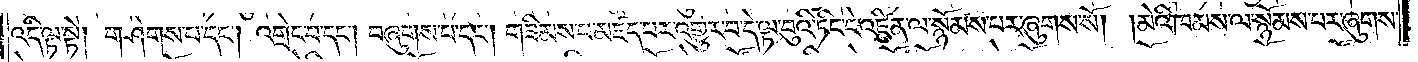འདི་ལྟ་སྟེ། གཤེགས་པ་དང༌། འགྲེང་བ་དང༌། བཞུགས་པ་དང༌། གཟིམས་པ་མཛད་པར་འགྱུར་བ་དེ་ལྟ་བུའི་ཏིང་ངེ་འཛིན་ལ་སྙོམས་པར་ཞུགས་སོ། །མེའི་ཁམས་ལ་སྙོམས་པར་ཞུགས་
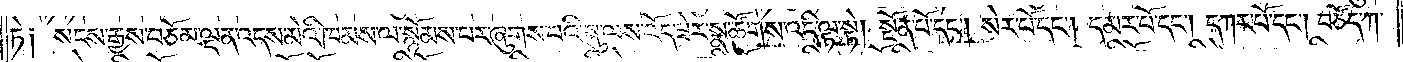ཏེ༑ སངས་རྒྱས་བཅོམ་ལྡན་འདས་མེའི་ཁམས་ལ་སྙོམས་པར་ཞུགས་པའི་སྐུ་ལས་འོད་ཟེར་སྣ་ཚོགས་འདི་ལྟ་སྟེ། སྔོན་པོ་དང༌། སེར་པོ་དང༌། དམར་པོ་དང༌། དཀར་པོ་དང༌། བཙོད་ཀ་
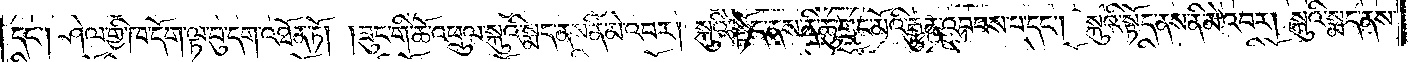དང༌། ཤེལ་གྱི་ཁ་དོག་ལྟ་བུ་དག་འཐོན་ཏོ། །ཟུང་གི་ཆོ་འཕྲུལ་སྐུའི་སྨད་ནས་ནི་མེ་འབར། སྐུའི་སྟོད་ནས་ནི་ཆུ་གྲང་མོའི་རྒྱུན་འབབས་པ་དང༌། སྐུའི་སྟོད་ནས་ནི་མེ་འབར། སྐུའི་སྨད་ནས་
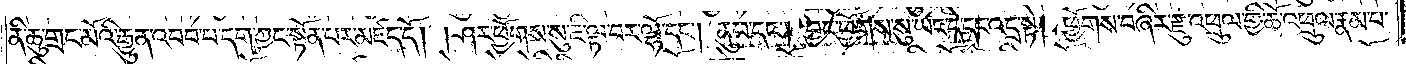ནི་ཆུ་གྲང་མོའི་རྒྱུན་འབབ་པ་དག་ཀྱང་སྟོན་པར་མཛད་དོ། །ཤར་ཕྱོགས་སུ་ཇི་ལྟ་བར་ལྷོ་དང༌། ནུབ་དང༌། བྱང་ཕྱོགས་སུ་ཡང་དེ་དང་འདྲ་སྟེ། ཕྱོགས་བཞིར་རྫུ་འཕྲུལ་གྱི་ཆོ་འཕྲུལ་རྣམ་པ་
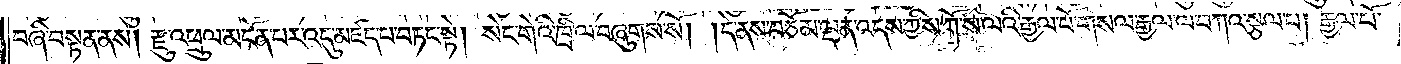བཞི་བསྟན་ནས། རྫུ་འཕྲུལ་མངོན་པར་འདུ་མཛད་པ་བཏང་སྟེ། སེང་གེའི་ཁྲི་ལ་བཞུགས་སོ། །དེ་ནས་བཅོམ་ལྡན་འདས་ཀྱིས་ཀོ་ས་ལའི་རྒྱལ་པོ་གསལ་རྒྱལ་ལ་བཀའ་སྩལ་པ། རྒྱལ་པོ་
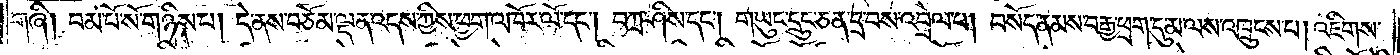གཞི། བམ་པོ་སོ་གཉིས་པ། དེ་ནས་བཅོམ་ལྡན་འདས་ཀྱིས་ཕྱག་འཁོར་ལོ་དང༌། བཀྲ་ཤིས་དང༌། གཡུང་དྲུང་ཅན་དྲ་བས་འབྲེལ་པ། བསོད་ནམས་བརྒྱ་ཕྲག་དུ་མ་ལས་འཁྲུངས་པ། འཇིགས་
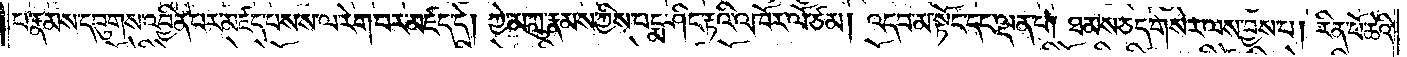པ་རྣམས་དབུགས་འབྱིན་པར་མཛད་པས་ས་ལ་རེག་པར་མཛད་དེ། ཀྱེ་མ་ཀླུ་རྣམས་ཀྱིས་པདྨ་ཤིང་རྟའི་འཁོར་ལོ་ཙམ། འདབ་མ་སྟོང་དང་ལྡན་པ། ཐམས་ཅད་གསེར་ལས་བྱས་པ། རིན་པོ་ཆེའི་
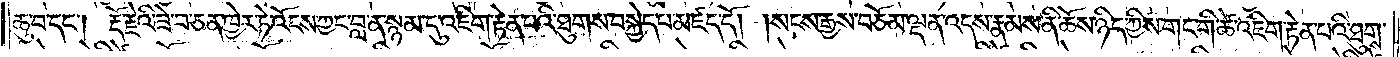ཆུ་བ་དང༌། རྡོ་རྗེའི་ཟེ་བ་ཅན་ཁྱེར་ཏེ་འོངས་ཀྱང་བླ་ན་སྙམ་དུ་འཇིག་རྟེན་པའི་ཐུགས་བསྐྱེད་པ་མཛད་དོ། །སངས་རྒྱས་བཅོམ་ལྡན་འདས་རྣམས་ནི་ཆོས་ཉིད་ཀྱིས་གང་གི་ཚེ་འཇིག་རྟེན་པའི་ཐུགས་
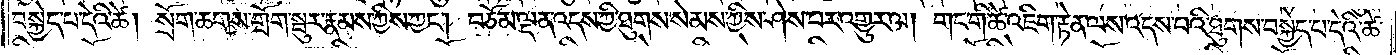བསྐྱེད་པ་དེའི་ཚེ། སྲོག་ཆགས་གྲོག་སྦུར་རྣམས་ཀྱིས་ཀྱང༌། བཅོམ་ལྡན་འདས་ཀྱིས་ཐུགས་སེམས་ཀྱིས་ཤེས་པར་འགྱུར་ལ། གང་གི་ཚེ་འཇིག་རྟེན་ལས་འདས་པའི་ཐུགས་བསྐྱེད་པ་དེའི་ཚེ་
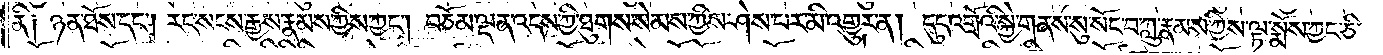ནི༑ ཉན་ཐོས་དང༌། རང་སངས་རྒྱས་རྣམས་ཀྱིས་ཀྱང༌། བཅོམ་ལྡན་འདས་ཀྱི་ཐུགས་སེམས་ཀྱིས་ཤེས་པར་མི་འགྱུར་ན། དུད་འགྲོའི་སྐྱེ་གནས་སུ་སོང་བ་ཀླུ་རྣམས་ཀྱིས་ལྟ་སྨོས་ཀྱང་ཅི་
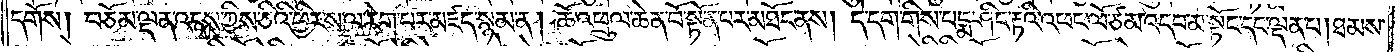དགོས། བཅོམ་ལྡན་འདས་ཀྱིས་ཅིའི་ཕྱིར་ས་ལ་རེག་པར་མཛད་སྙམ་ན། ཆོ་འཕྲུལ་ཆེན་པོ་སྟོན་པར་མཐོང་ནས། དེ་དག་གིས་པདྨ་ཤིང་རྟའི་འཕང་ལོ་ཙམ་འདབ་མ་སྟོང་དང་ལྡན་པ། ཐམས་
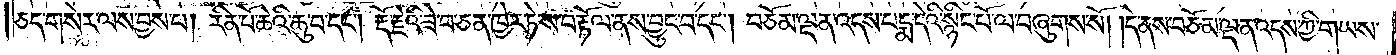ཅད་གསེར་ལས་བྱས་པ། རིན་པོ་ཆེའི་ཆུ་བ་དང༌། རྡོ་རྗེའི་ཟེ་བ་ཅན་ཁྱེར་ཏེ་ས་བརྟོལ་ནས་བྱུང་བ་དང༌། བཅོམ་ལྡན་འདས་པདྨ་དེའི་སྙིང་པོ་ལ་བཞུགས་སོ། །དེ་ནས་བཅོམ་ལྡན་འདས་ཀྱི་གཡས་
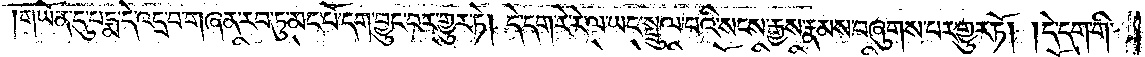གཡོན་དུ་པདྨ་དེ་འདྲ་བ་གཞན་རབ་ཏུ་མང་པོ་དག་བྱུང་བར་གྱུར་ཏེ། དེ་དག་རེ་རེ་ལ་ཡང་སྤྲུལ་པའི་སངས་རྒྱས་རྣམས་བཞུགས་པར་གྱུར་ཏོ། །དེ་དག་གི་
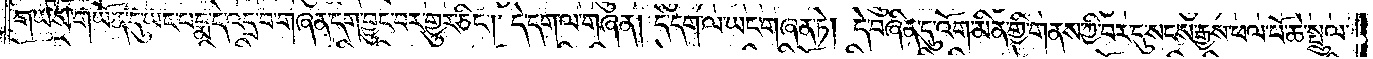གཡས་གཡོན་དུ་ཡང་པདྨ་དེ་འདྲ་བ་གཞན་དག་བྱུང་བར་གྱུར་ཅིག། དེ་དག་ལ་གཞན། དེ་དག་ལ་ཡང་གཞན་ཏེ། དེ་བཞིན་དུ་འོག་མིན་གྱི་གནས་ཀྱི་བར་དུ་སངས་རྒྱས་ཕལ་པོ་ཆེ་སྤྲུལ་
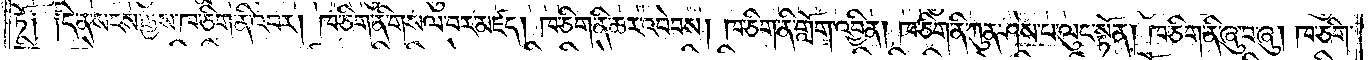ཏོ༑ ༑དེ་ན་སངས་རྒྱས་ཁ་ཅིག་ནི་འབར། ཁ་ཅིག་ནི་གསལ་བར་མཛད། ཁ་ཅིག་ནི་ཆར་འབེབས། ཁ་ཅིག་ནི་གློག་འབྱིན། ཁ་ཅིག་ནི་ཀུན་ཤེས་པ་ལུང་སྟོན། ཁ་ཅིག་ནི་ཞུ་བ་ཞུ། ཁ་ཅིག་
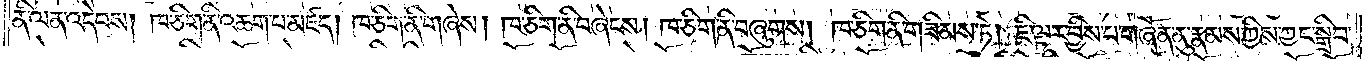ནི་ལན་འདེབས། ཁ་ཅིག་ནི་འཆག་པ་མཛད། ཁ་ཅིག་ནི་གཞེས། ཁ་ཅིག་ནི་བཞེངས། ཁ་ཅིག་ནི་བཞུགས། ཁ་ཅིག་ནི་གཟིམས་ཏེ། ཇི་ལྟར་བྱིས་པ་གཞོན་ནུ་རྣམས་ཀྱིས་ཀྱང་སྒྲིབ་
